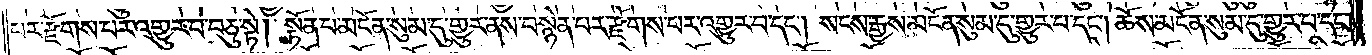པར་རྫོགས་པར་འགྱུར་བ་བཅུ་སྟེ། སྟོན་པ་མངོན་སུམ་དུ་གྱུར་ནས་བསྙེན་པར་རྫོགས་པར་འགྱུར་བ་དང༌། སངས་རྒྱས་མངོན་སུམ་དུ་གྱུར་པ་དང༌། ཆོས་མངོན་སུམ་དུ་གྱུར་པ་དང༌།
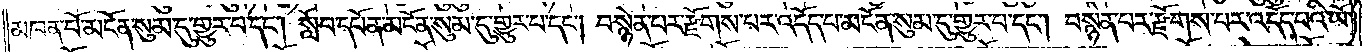མཁན་པོ་མངོན་སུམ་དུ་གྱུར་པ་དང༌། སློབ་དཔོན་མངོན་སུམ་དུ་གྱུར་པ་དང༌། བསྙེན་པར་རྫོགས་པར་འདོད་པ་མངོན་སུམ་དུ་གྱུར་པ་དང༌། བསྙེན་པར་རྫོགས་པར་འདོད་པའི་ཡོ་
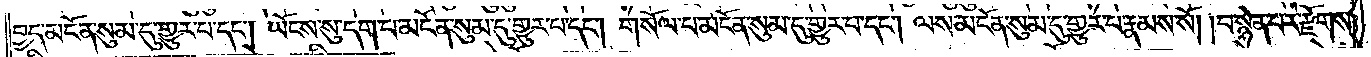བྱད་མངོན་སུམ་དུ་གྱུར་པ་དང༌། ཡོངས་སུ་དག་པ་མངོན་སུམ་དུ་གྱུར་པ་དང༌། གསོལ་པ་མངོན་སུམ་དུ་གྱུར་པ་དང༌། ལས་མངོན་སུམ་དུ་གྱུར་པ་རྣམས་སོ། །བསྙེན་པར་རྫོགས་
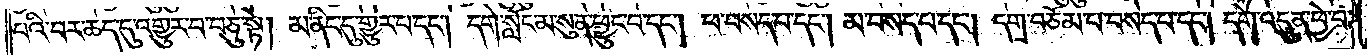པའི་བར་ཆད་དུ་འགྱུར་བ་བཅུ་སྟེ། མ་ནིང་དུ་གྱུར་པ་དང༌། དགེ་སློང་མ་སུན་ཕྱུང་བ་དང༌། ཕ་བསད་པ་དང༌། མ་བསད་པ་དང༌། དགྲ་བཅོམ་པ་བསད་པ་དང༌། དགེ་འདུན་ཕྱེ་བ་
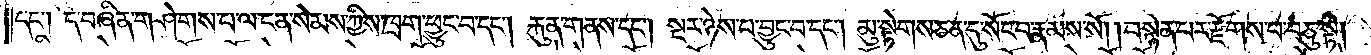དང༌། དེ་བཞིན་གཤེགས་པ་ལ་ངན་སེམས་ཀྱིས་ཁྲག་ཕྱུང་བ་དང༌། རྐུན་གནས་དང༌། སྔར་ཉེས་པ་བྱུང་བ་དང༌། མུ་སྟེགས་ཅན་དུ་སོང་བ་རྣམས་སོ། །བསྙེན་པར་རྫོགས་པ་བཅུ་སྟེ། དེ་
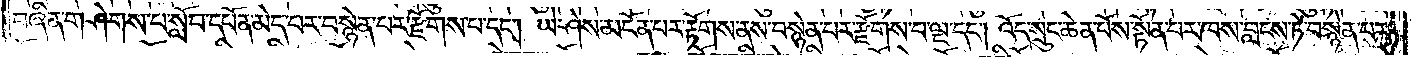བཞིན་གཤེགས་པ་སློབ་དཔོན་མེད་པར་བསྙེན་པར་རྫོགས་པ་དང༌། ཡེ་ཤེས་མངོན་པར་རྟོགས་ནས་བསྙེན་པར་རྫོགས་པ་ལྔ་དང༌། འོད་སྲུང་ཆེན་པོས་སྟོན་པར་ཁས་བླངས་ཏེ་བསྙེན་པར་
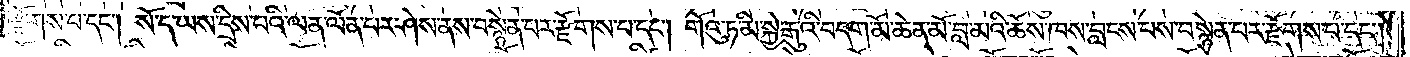རྫོགས་པ་དང༌། སོ་ད་ཡས་དྲིས་པའི་ལན་ལོན་པར་ཤེས་ནས་བསྙེན་པར་རྫོགས་པ་དང༌། གོའུ་ཏ་མི་སྐྱེ་རྒུའི་བདག་མོ་ཆེན་མོ་བླ་མའི་ཆོས་ཁས་བླངས་པས་བསྙེན་པར་རྫོགས་པ་དང༌།
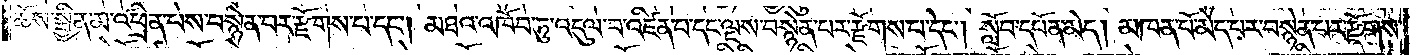ཆོས་སྦྱིན་མ་འཕྲིན་པས་བསྙེན་པར་རྫོགས་པ་དང༌། མཐའ་འཁོབ་ཏུ་འདུལ་བ་འཛིན་པ་དང་ལྔས་བསྙེན་པར་རྫོགས་པ་དང༌། སློབ་དཔོན་མེད། མཁན་པོ་མེད་པར་བསྙེན་པར་རྫོགས་
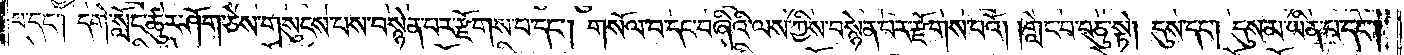པ་དང༌། དགེ་སློང་ཚུར་ཤོག་ཅེས་གསུངས་པས་བསྙེན་པར་རྫོགས་པ་དང༌། གསོལ་བ་དང་བཞིའི་ལས་ཀྱིས་བསྙེན་པར་རྫོགས་པའོ། །གླེང་བ་བཅུ་སྟེ། དུས་དང༌། དུས་མ་ཡིན་པ་དང༌།
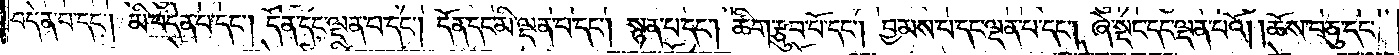བདེན་པ་དང༌། མི་བདེན་པ་དང༌། དོན་དང་ལྡན་པ་དང༌། དོན་དང་མི་ལྡན་པ་དང༌། སྙན་པ་དང༌། ཚིག་རྩུབ་པོ་དང༌། བྱམས་པ་དང་ལྡན་པ་དང༌། ཞེ་སྡང་དང་ལྡན་པའོ། །ཆོས་བཅུ་དང་
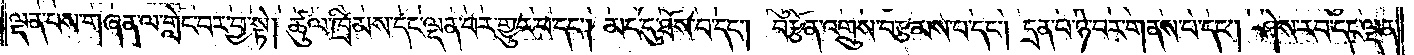ལྡན་པས་གཞན་ལ་གླེང་བར་བྱ་སྟེ། ཚུལ་ཁྲིམས་དང་ལྡན་པར་གྱུར་པ་དང༌། མང་དུ་ཐོས་པ་དང༌། བརྩོན་འགྲུས་བརྩམས་པ་དང༌། དྲན་པ་ཉེ་བར་གནས་པ་དང༌། ཤེས་རབ་དང་ལྡན་
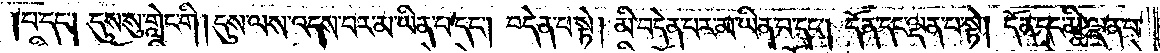པ་དང༌། དུས་སུ་གླེང་གི །དུས་ལས་འདས་པར་མ་ཡིན་པ་དང༌། བདེན་པ་སྟེ། མི་བདེན་པར་མ་ཡིན་པ་དང༌། དོན་དང་ལྡན་པ་སྟེ། དོན་དང་མི་ལྡན་པ་
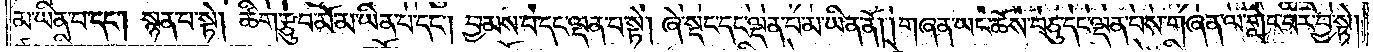མ་ཡིན་པ་དང༌། སྙན་པ་སྟེ། ཚིག་རྩུབ་མོ་མ་ཡིན་པ་དང༌། བྱམས་པ་དང་ལྡན་པ་སྟེ། ཞེ་སྡང་དང་ལྡན་པ་མ་ཡིན་ནོ། །གཞན་ཡང་ཆོས་བཅུ་དང་ལྡན་པས་གཞན་ལ་གླེང་བར་བྱ་སྟེ།
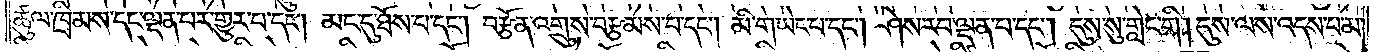ཚུལ་ཁྲིམས་དང་ལྡན་པར་གྱུར་པ་དང༌། མང་དུ་ཐོས་པ་དང༌། བརྩོན་འགྲུས་བརྩམས་པ་དང༌། མི་གཡེང་པ་དང༌། ཤེས་རབ་ལྡན་པ་དང༌། དུས་སུ་གླེང་གི། དུས་ལས་འདས་པ་མ་
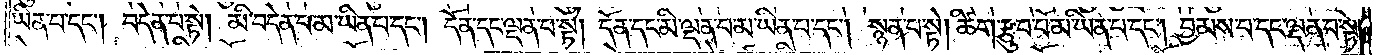ཡིན་པ་དང༌། བདེན་པ་སྟེ། མི་བདེན་པ་མ་ཡིན་པ་དང༌། དོན་དང་ལྡན་པ་སྟེ། དོན་དང་མི་ལྡན་པ་མ་ཡིན་པ་དང༌། སྙན་པ་སྟེ། ཚིག་རྩུབ་པོ་མ་ཡིན་པ་དང༌། བྱམས་པ་དང་ལྡན་པ་སྟེ།
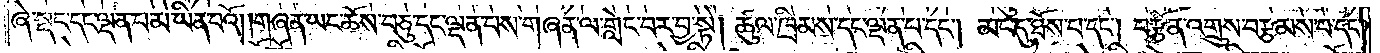ཞེ་སྡང་དང་ལྡན་པ་མ་ཡིན་པའོ། །གཞན་ཡང་ཆོས་བཅུ་དང་ལྡན་པས་གཞན་ལ་གླེང་བར་བྱ་སྟེ། ཚུལ་ཁྲིམས་དང་ལྡན་པ་དང༌། མང་དུ་ཐོས་པ་དང༌། བརྩོན་འགྲུས་བརྩམས་པ་དང་
